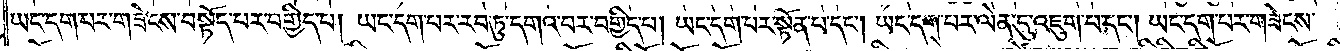ཡང་དག་པར་གཟེངས་བསྟོད་པར་བགྱིད་པ། ཡང་དག་པར་རབ་ཏུ་དགའ་བར་བགྱིད་པ། ཡང་དག་པར་སྟོན་པ་དང༌། ཡང་དག་པར་ལེན་དུ་འཇུག་པ་དང༌། ཡང་དག་པར་གཟེངས་
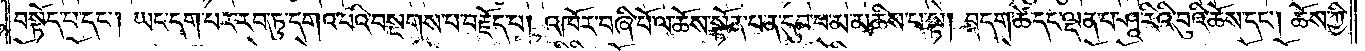བསྟོད་པ་དང༌། ཡང་དག་པར་རབ་ཏུ་དགའ་བའི་བསྔགས་པ་བརྗོད་པ། འཁོར་བཞི་པོ་ལ་ཆོས་སྟོན་པ་ན་དུབ་པ་མ་མཆིས་པ་སྟེ། བདག་ཚེ་དང་ལྡན་པ་ཤཱ་རིའི་བུའི་ཆོས་དང༌། ཆོས་ཀྱི་
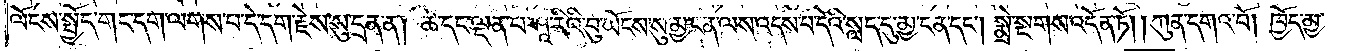ལོངས་སྤྱོད་གང་དག་ལགས་པ་དེ་དག་རྗེས་སུ་དྲན་ན། ཚེ་དང་ལྡན་པ་ཤཱ་རིའི་བུ་ཡོངས་སུ་མྱ་ངན་ལས་འདས་པ་དེའི་སླད་དུ་མྱ་ངན་དང༌། སྨྲེ་སྔགས་འདོན་ཏོ། །ཀུན་དགའ་བོ། ཁྱོད་མྱ་
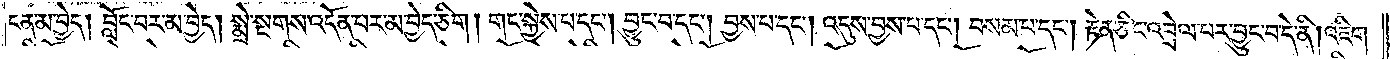ངན་མ་བྱེད། བློང་བར་མ་བྱེད། སྨྲེ་སྔགས་འདོན་པར་མ་བྱེད་ཅིག། གང་སྐྱེས་པ་དང༌། བྱུང་བ་དང༌། བྱས་པ་དང༌། འདུས་བྱས་པ་དང༌། བསམ་པ་དང༌། རྟེན་ཅིང་འབྲེལ་པར་བྱུང་བ་དེ་ནི། འཇིག་
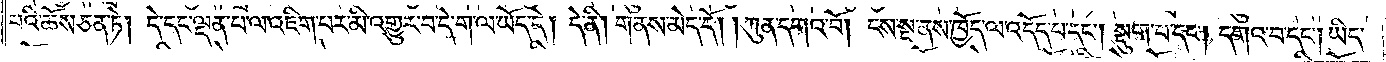པའི་ཆོས་ཅན་ཏེ། དེ་དང་ལྡན་པ་ལ་འཇིག་པར་མི་འགྱུར་བ་དེ་ག་ལ་ཡོད་དེ། དེ་ནི། གནས་མེད་དོ། །ཀུན་དགའ་བོ། ངས་སྔ་ནས་ཁྱོད་ལ་འདོད་པ་དང༌། སྡུག་པ་དང༌། དགའ་བ་དང༌། ཡིད་
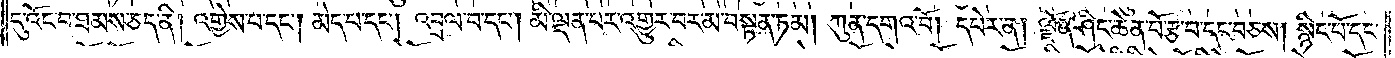དུ་འོང་བ་ཐམས་ཅད་ནི། འགྱེས་པ་དང༌། མེད་པ་དང༌། འབྲལ་པ་དང༌། མི་ལྡན་པར་འགྱུར་བར་མ་བསྟན་ཏམ། ཀུན་དགའ་བོ། དཔེར་ན། ལྗོན་ཤིང་ཆེན་པོ་རྩ་བ་དང་བཅས། སྙིང་པོ་དང་
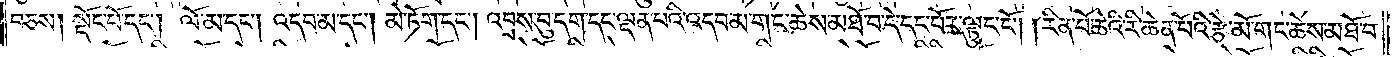བཅས། སྡོང་པོ་དང༌། ལོ་མ་དང༌། འདབ་མ་དང༌། མེ་ཏོག་དང༌། འབྲས་བུ་དག་དང་ལྡན་པའི་འདབ་མ་གང་ཆེས་མཐོ་བ་དེ་དང་པོར་ལྟུང་ངོ༌། །རིན་པོ་ཆེའི་རི་ཆེན་པོའི་རྩེ་མོ་གང་ཆེས་མཐོ་བ་
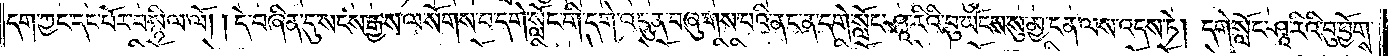དག་ཀྱང་དང་པོར་བསྙིལ་ལོ། །དེ་བཞིན་དུ་སངས་རྒྱས་ལ་སོགས་པ་དགེ་སློང་གི་དགེ་འདུན་བཞུགས་པའི་ནང་ན་དགེ་སློང་ཤཱ་རིའི་བུ་ཡོངས་སུ་མྱ་ངན་ལས་འདས་ཏེ། དགེ་སློང་ཤཱ་རིའི་བུ་ཕྱོགས་
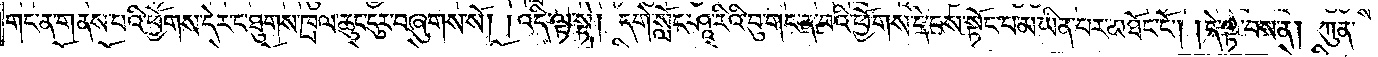གང་ན་གནས་པའི་ཕྱོགས་དེར་ང་ཐུགས་ཁྲལ་ཆུང་ངུར་བཞུགས་སོ། །འདི་ལྟ་སྟེ། དགེ་སློང་ཤཱ་རིའི་བུ་གང་ན་བའི་ཕྱོགས་དེ་ངས་སྟོང་པ་མ་ཡིན་པར་མཐོང་ངོ༌། །དེ་ལྟ་བས་ན། ཀུན་
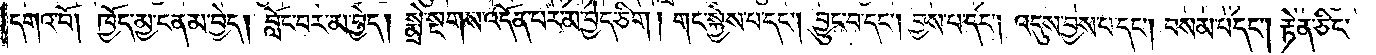དགའ་བོ། ཁྱོད་མྱ་ངན་མ་བྱེད། བློང་བར་མ་བྱེད། སྨྲེ་སྔགས་འདོན་པར་མ་བྱེད་ཅིག །གང་སྐྱེས་པ་དང༌། བྱུང་བ་དང༌། བྱས་པ་དང༌། འདུས་བྱས་པ་དང༌། བསམ་པ་དང༌། རྟེན་ཅིང་
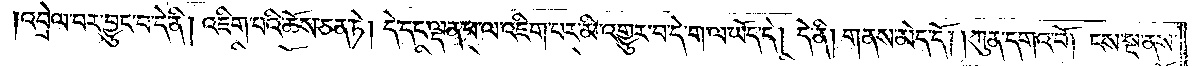འབྲེལ་བར་བྱུང་བ་དེ་ནི། འཇིག་པའི་ཆོས་ཅན་ཏེ། དེ་དང་ལྡན་པ་ལ་འཇིག་པར་མི་འགྱུར་བ་དེ་ག་ལ་ཡོད་དེ། དེ་ནི། གནས་མེད་དོ། །ཀུན་དགའ་བོ། ངས་སྔ་ནས་
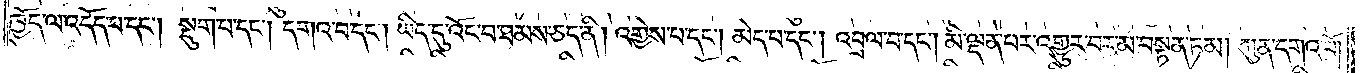ཁྱོད་ལ་འདོད་པ་དང༌། སྡུག་པ་དང༌། དགའ་བ་དང༌། ཡིད་དུ་འོང་བ་ཐམས་ཅད་ནི། འགྱེས་པ་དང༌། མེད་པ་དང༌། འབྲས་བ་དང༌། མི་ལྡན་པར་འགྱུར་བར་མ་བསྟན་ཏམ། ཀུན་དགའ་བོ།
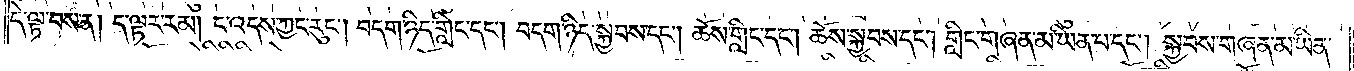དེ་ལྟ་བས་ན། ད་ལྟར་རམ། ང་འདས་ཀྱང་རུང༌། བདག་ཉིད་གླིང་དང༌། བདག་ཉིད་སྐྱབས་དང༌། ཆོས་གླིང་དང༌། ཆོས་སྐྱབས་དང༌། གླིང་གཞན་མ་ཡིན་པ་དང༌། སྐྱབས་གཞན་མ་ཡིན་
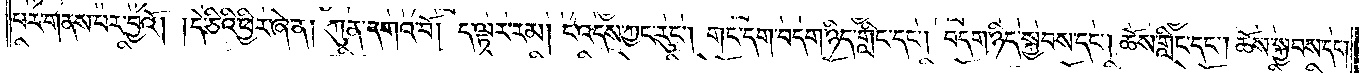པར་གནས་པ་བྱའོ། །དེ་ཅིའི་ཕྱིར་ཞེ་ན། ཀུན་དགའ་བོ། ད་ལྟར་རམ། ང་འདས་ཀྱང་རུང༌། གང་དག་བདག་ཉིད་གླིང་དང༌། བདག་ཉིད་སྐྱབས་དང༌། ཆོས་གླིང་དང༌། ཆོས་སྐྱབས་དང༌།
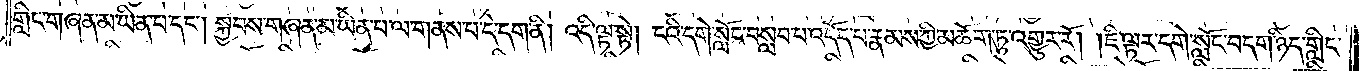གླིང་གཞན་མ་ཡིན་པ་དང༌། སྐྱབས་གཞན་མ་ཡིན་པ་ལ་གནས་པ་དེ་དག་ནི། འདི་ལྟ་སྟེ། ངའི་དགེ་སློང་བསླབ་པ་འདོད་པ་རྣམས་ཀྱི་མཆོག་ཏུ་འགྱུར་རོ། །ཇི་ལྟར་དགེ་སློང་བདག་ཉིད་གླིང་
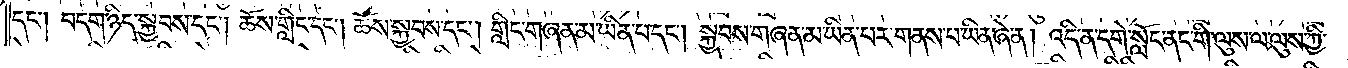དང༌། བདག་ཉིད་སྐྱབས་དང༌། ཆོས་གླིང་དང༌། ཆོས་སྐྱབས་དང༌། གླིང་གཞན་མ་ཡིན་པ་དང༌། སྐྱབས་གཞན་མ་ཡིན་པར་གནས་པ་ཡིན་ཞེ་ན། འདི་ན་དགེ་སློང་ནང་གི་ལུས་ལ་ལུས་ཀྱི་
